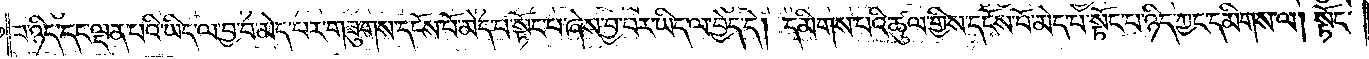པ་ཉིད་དང་ལྡན་པའི་ཡིད་ལ་བྱ་བ་མེད་པར་གཟུགས་དངོས་པོ་མེད་པ་སྟོང་པ་ཞེས་བྱ་བར་ཡིད་ལ་བྱེད་དེ། དམིགས་པའི་ཚུལ་གྱིས་དངོས་པོ་མེད་པ་སྟོང་པ་ཉིད་ཀྱང་དམིགས་ལ། སྟོང་
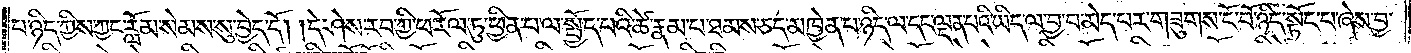པ་ཉིད་ཀྱིས་ཀྱང་རློམ་སེམས་སུ་བྱེད་དོ། །དེ་ཤེས་རབ་ཀྱི་ཕ་རོལ་ཏུ་ཕྱིན་པ་ལ་སྤྱོད་པའི་ཚེ་རྣམ་པ་ཐམས་ཅད་མཁྱེན་པ་ཉིད་ལ་དང་ལྡན་པའི་ཡིད་ལ་བྱ་བ་མེད་པར་གཟུགས་ངོ་བོ་ཉིད་སྟོང་པ་ཞེས་བྱ་
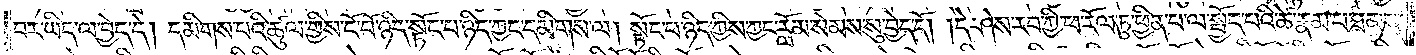བར་ཡིད་ལ་བྱེད་དེ། དམིགས་པའི་ཚུལ་གྱིས་ངོ་བོ་ཉིད་སྟོང་པ་ཉིད་ཀྱང་དམིགས་ལ། སྟོང་པ་ཉིད་ཀྱིས་ཀྱང་རློམ་སེམས་སུ་བྱེད་དོ། །དེ་ཤེས་རབ་ཀྱི་ཕ་རོལ་ཏུ་ཕྱིན་པ་ལ་སྤྱོད་པའི་ཚེ་རྣམ་པ་ཐམས་
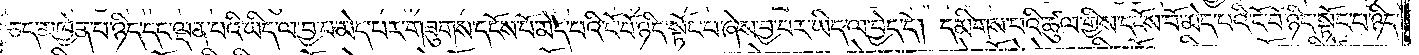ཅད་མཁྱེན་པ་ཉིད་དང་ལྡན་པའི་ཡིད་ལ་བྱ་བ་མེད་པར་གཟུགས་དངོས་པོ་མེད་པའི་ངོ་བོ་ཉིད་སྟོང་པ་ཞེས་བྱ་བར་ཡིད་ལ་བྱེད་དེ། དམིགས་པའི་ཚུལ་གྱིས་དངོས་པོ་མེད་པའི་ངོ་བོ་ཉིད་སྟོང་པ་ཉིད་
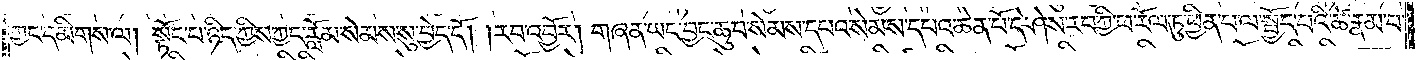ཀྱང་དམིགས་ལ། སྟོང་པ་ཉིད་ཀྱིས་ཀྱང་རློམ་སེམས་སུ་བྱེད་དོ། །རབ་འབྱོར། གཞན་ཡང་བྱང་ཆུབ་སེམས་དཔའ་སེམས་དཔའ་ཆེན་པོ་དེ་ཤེས་རབ་ཀྱི་ཕ་རོལ་ཏུ་ཕྱིན་པ་ལ་སྤྱོད་པའི་ཚེ་རྣམ་པ་
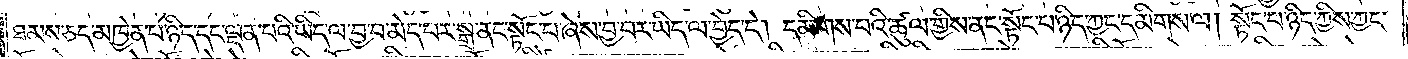ཐམས་ཅད་མཁྱེན་པ་ཉིད་དང་ལྡན་པའི་ཡིད་ལ་བྱ་བ་མེད་པར་སྒྲ་ནང་སྟོང་པ་ཞེས་བྱ་བར་ཡིད་ལ་བྱེད་དེ། དམིགས་པའི་ཚུལ་གྱིས་ནང་སྟོང་པ་ཉིད་ཀྱང་དམིགས་ལ། སྟོང་པ་ཉིད་ཀྱིས་ཀྱང་
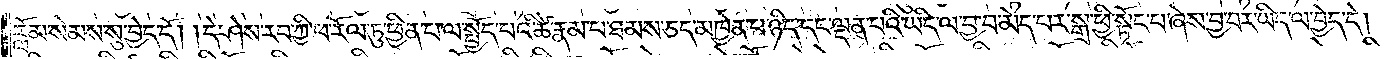རློམ་སེམས་སུ་བྱེད་དོ། །དེ་ཤེས་རབ་ཀྱི་ཕ་རོལ་ཏུ་ཕྱིན་པ་ལ་སྤྱོད་པའི་ཚེ་རྣམ་པ་ཐམས་ཅད་མཁྱེན་པ་ཉིད་དང་ལྡན་པའི་ཡིད་ལ་བྱ་བ་མེད་པར་སྒྲ་ཕྱི་སྟོང་པ་ཞེས་བྱ་བར་ཡིད་ལ་བྱེད་དེ།
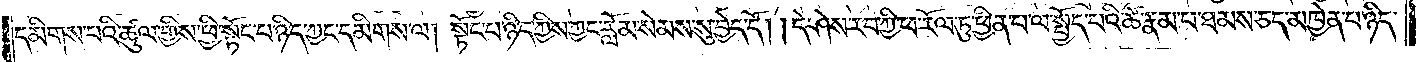དམིགས་པའི་ཚུལ་གྱིས་ཕྱི་སྟོང་པ་ཉིད་ཀྱང་དམིགས་ལ། སྟོང་པ་ཉིད་ཀྱིས་ཀྱང་རློམ་སེམས་སུ་བྱེད་དོ། །དེ་ཤེས་རབ་ཀྱི་ཕ་རོལ་ཏུ་ཕྱིན་པ་ལ་སྤྱོད་པའི་ཚེ་རྣམ་པ་ཐམས་ཅད་མཁྱེན་པ་ཉིད་
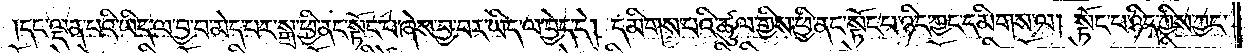དང་ལྡན་པའི་ཡིད་ལ་བྱ་བ་མེད་པར་སྒྲ་ཕྱི་ནང་སྟོང་པ་ཞེས་བྱ་བར་ཡིད་ལ་བྱེད་དེ། དམིགས་པའི་ཚུལ་གྱིས་ཕྱི་ནང་སྟོང་པ་ཉིད་ཀྱང་དམིགས་ལ། སྟོང་པ་ཉིད་ཀྱིས་ཀྱང་
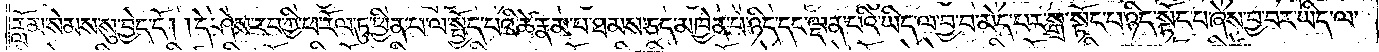རློམ་སེམས་སུ་བྱེད་དོ། །དེ་ཤེས་རབ་ཀྱི་ཕ་རོལ་ཏུ་ཕྱིན་པ་ལ་སྤྱོད་པའི་ཚེ་རྣམ་པ་ཐམས་ཅད་མཁྱེན་པ་ཉིད་དང་ལྡན་པའི་ཡིད་ལ་བྱ་བ་མེད་པར་སྒྲ་སྟོང་པ་ཉིད་སྟོང་པ་ཞེས་བྱ་བར་ཡིད་ལ་
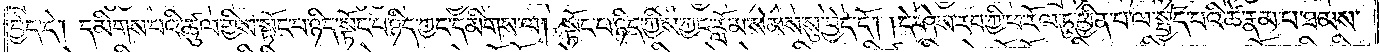བྱེད་དེ། དམིགས་པའི་ཚུལ་གྱིས་སྟོང་པ་ཉིད་སྟོང་པ་ཉིད་ཀྱང་དམིགས་ལ། སྟོང་པ་ཉིད་ཀྱིས་ཀྱང་རློམ་སེམས་སུ་བྱེད་དོ། །དེ་ཤེས་རབ་ཀྱི་ཕ་རོལ་ཏུ་ཕྱིན་པ་ལ་སྤྱོད་པའི་ཚེ་རྣམ་པ་ཐམས་
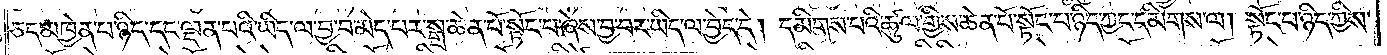ཅད་མཁྱེན་པ་ཉིད་དང་ལྡན་པའི་ཡིད་ལ་བྱ་བ་མེད་པར་སྒྲ་ཆེན་པོ་སྟོང་པ་ཞེས་བྱ་བར་ཡིད་ལ་བྱེད་དེ། དམིགས་པའི་ཚུལ་གྱིས་ཆེན་པོ་སྟོང་པ་ཉིད་ཀྱང་དམིགས་ལ། སྟོང་པ་ཉིད་ཀྱིས་
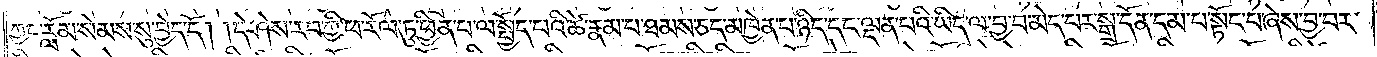ཀྱང་རློམ་སེམས་སུ་བྱེད་དོ། །དེ་ཤེས་རབ་ཀྱི་ཕ་རོལ་ཏུ་ཕྱིན་པ་ལ་སྤྱོད་པའི་ཚེ་རྣམ་པ་ཐམས་ཅད་མཁྱེན་པ་ཉིད་དང་ལྡན་པའི་ཡིད་ལ་བྱ་བ་མེད་པར་སྒྲ་དོན་དམ་པ་སྟོང་པ་ཞེས་བྱ་བར་
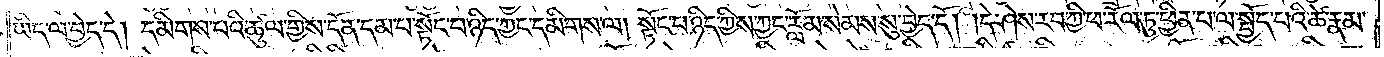ཡིད་ལ་བྱེད་དེ། དམིགས་པའི་ཚུལ་གྱིས་དོན་དམ་པ་སྟོང་པ་ཉིད་ཀྱང་དམིགས་ལ། སྟོང་པ་ཉིད་ཀྱིས་ཀྱང་རློམ་སེམས་སུ་བྱེད་དོ། །དེ་ཤེས་རབ་ཀྱི་ཕ་རོལ་ཏུ་ཕྱིན་པ་ལ་སྤྱོད་པའི་ཚེ་རྣམ་
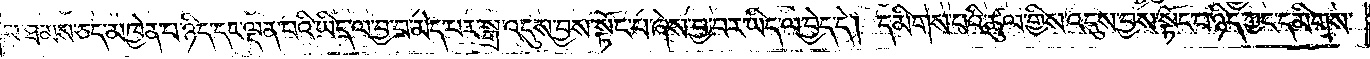པ་ཐམས་ཅད་མཁྱེན་པ་ཉིད་དང་ལྡན་པའི་ཡིད་ལ་བྱ་བ་མེད་པར་སྒྲ་འདུས་བྱས་སྟོང་པ་ཞེས་བྱ་བར་ཡིད་ལ་བྱེད་དེ། དམིགས་པའི་ཚུལ་གྱིས་འདུས་བྱས་སྟོང་པ་ཉིད་ཀྱང་དམིགས་
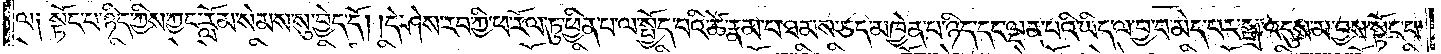ལ༑ སྟོང་པ་ཉིད་ཀྱིས་ཀྱང་རློམ་སེམས་སུ་བྱེད་དོ། །དེ་ཤེས་རབ་ཀྱི་ཕ་རོལ་ཏུ་ཕྱིན་པ་ལ་སྤྱོད་པའི་ཚེ་རྣམ་པ་ཐམས་ཅད་མཁྱེན་པ་ཉིད་དང་ལྡན་པའི་ཡིད་ལ་བྱ་བ་མེད་པར་སྒྲ་འདུས་མ་བྱས་སྟོང་པ་
